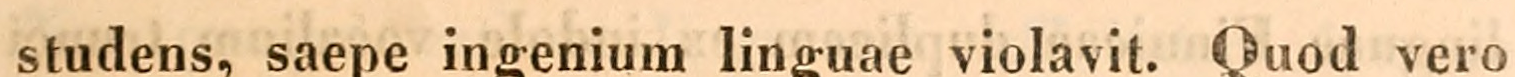studens, saepe ingenium linguae violavit. Quod vero
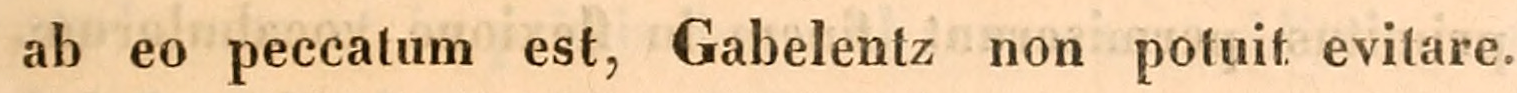ab eo peccatum est, Gabelentz non potuit evitare.
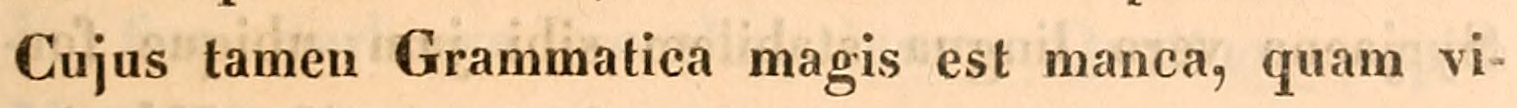Cujus tamen Grammatica magis est manca, quam vi-
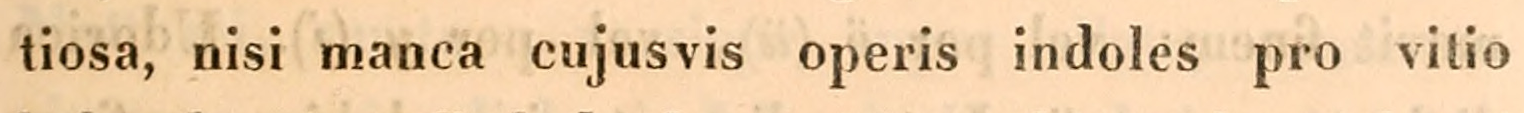tiosa, nisi manca cujusvis operis indoles pro vitio
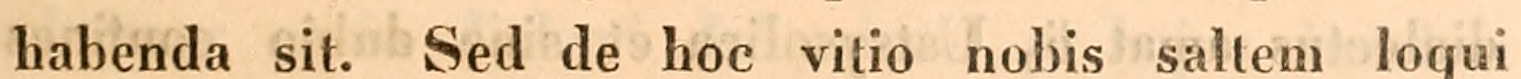habenda sit. Sed de hoc vitio nobis saltem loqui
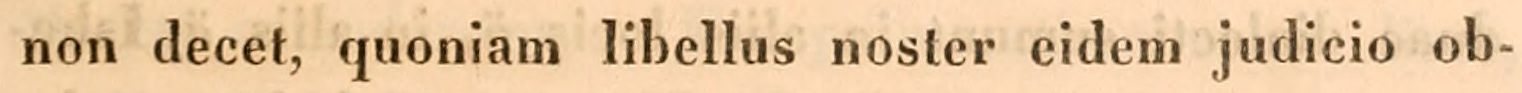non decet, quoniam libellus noster eidem judicio ob-
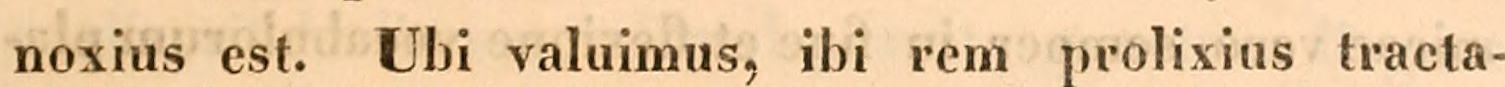noxius est. Ubi valuimus, ibi rem prolixius tracta-
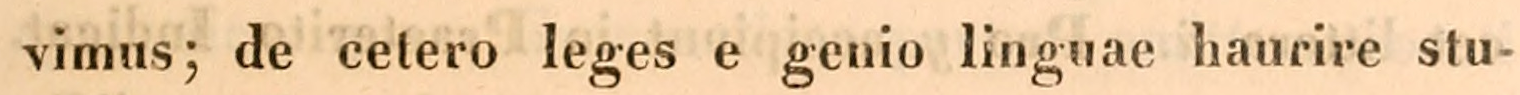vimus; de cetero leges e genio linguae haurire stu-
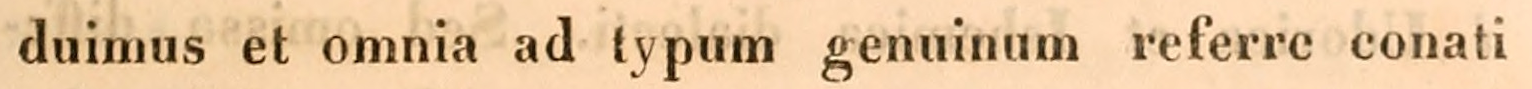duimus et omnia ad typum genuinum referre conati
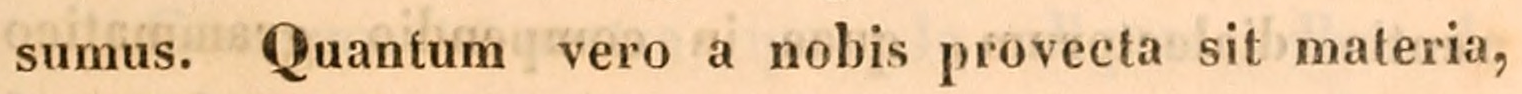sumus. Quantum vero a nobis provecta sit materia,
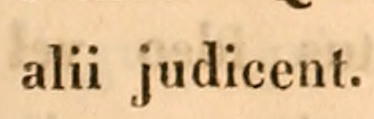alii judicent.
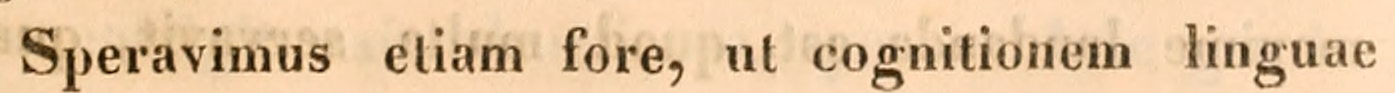Speravimus etiam fore, ut cognitionem linguae
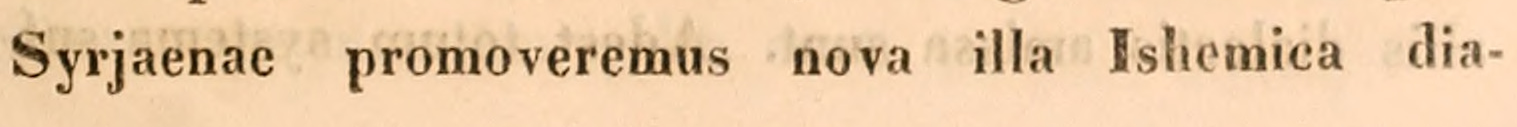Syrjaenae promoveremus nova illa Ishemica dia-
